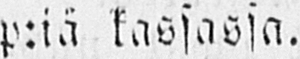p:iä kassassa.
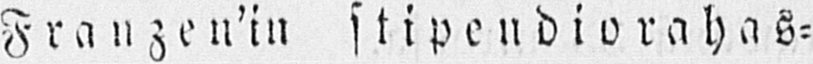Franz en'in stipeudiorahas-
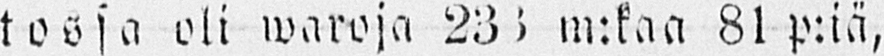tossa oli waroja 233 m:kaa 8l p:iä,
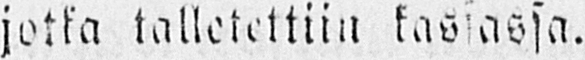jotka talletettiin kassassa.
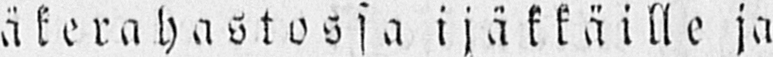Eläkerahastossa ij äkkäille ja
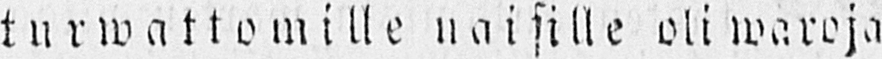turwattomille naisille oli waroja
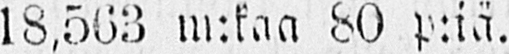18,563 m:kaa 80 p:iä.
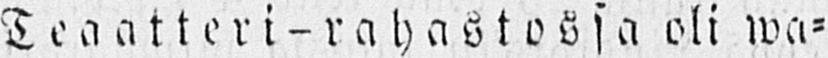Teaatteri - rahastossa oli wa-
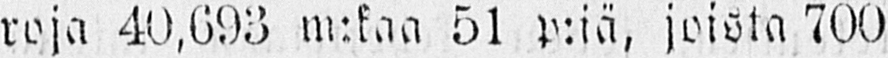roja 40,693 m:kaa 51 p:iä, joista 700
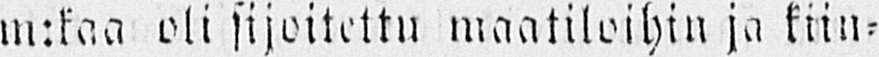m:kaa oli sijoitettu maatiloihin ja kiin-
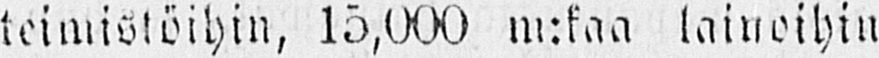toimistöihin, 15,000 m:kaa lainoihin
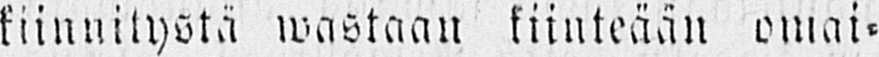kiinnitystä wastaan kiinteään omai-
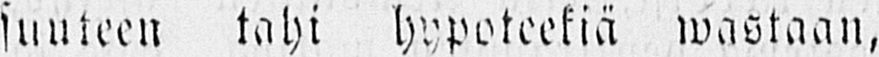suuteen tahi hypoteekiä wastaan,
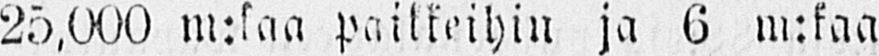95,000 m:kaa paikkeihin ja 6 m:kaa
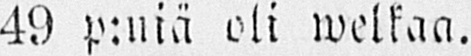49 p:niä oli welkaa.
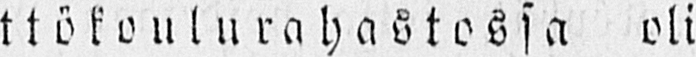Tyttökoulurahastos s a oli
